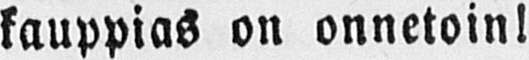kauppias on onnetoin!
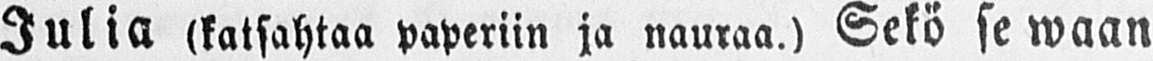Julia (katsahtaa paperiin ja nauraa.) Sekö se waan
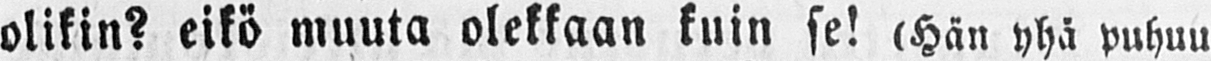olikin? eikö muuta olekkaan kuin se! (Hän yhä puhuu
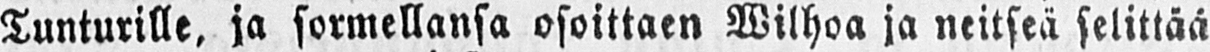Tunturille, ja sormellansa osoittaen Wilhoa ja neitseä selittää
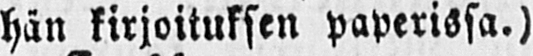hän kirjoituksen paperissa.)
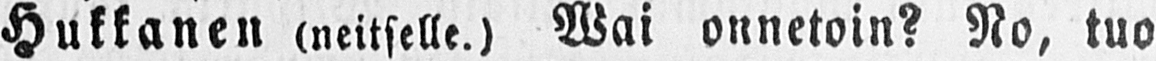Hukkanen (neitselle.) Wai onnetoin? No, tuo
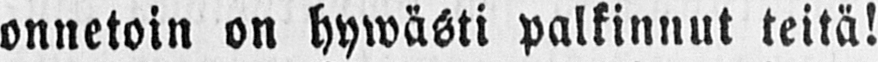onnetoin on hywästi palkinnut teitä!
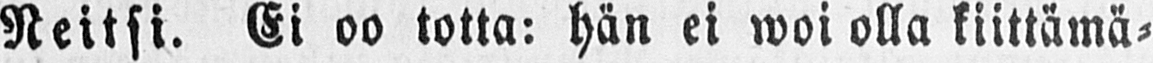Neitsi. Ei oo totta: hän ei woi olla kiittämä-
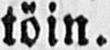töin.
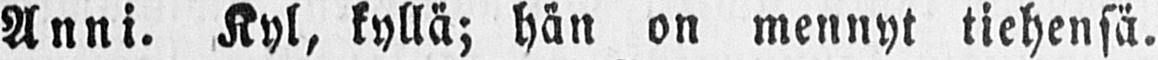Anni. Kyl, kyllä; hän on mennyt tiehensä.
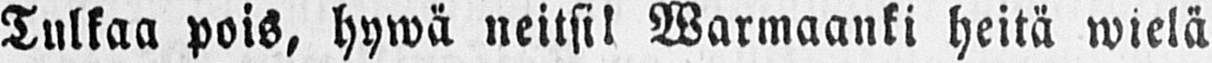Tulkaa pois, hywä neitsi! Warmaanki heitä wielä
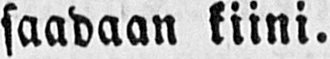saadaan kiini.
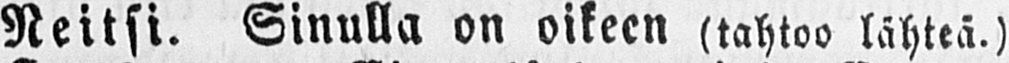Neitsi. Sinulla on oikeen (tahtoo lähteä.)
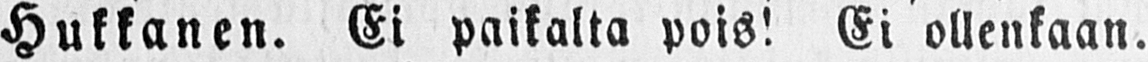Hukkanen. Ei paikalta pois! Ei ollenkaan.
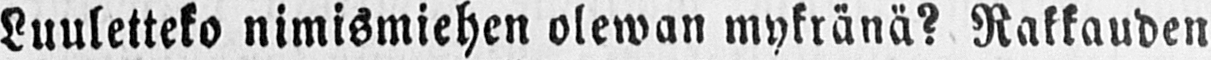Luuletteko nimismiehen olewan mykränä? Rakkauden
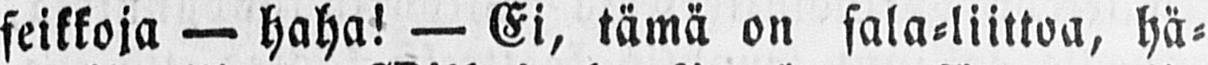seikkoja — haha! — Ei, tämä on sala-liittoa, hä-
